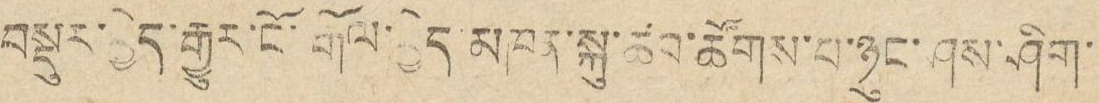བསྡུར་བྱེད་རྒྱུར་ངོ་རྒོལ་བྱེད་མཁན་སྐུ་ཚབ་ཚོགས་པ་ཉུང་ཤས་ཤིག་
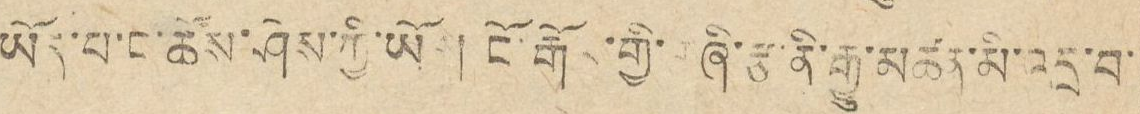ཡོད་པ་ང་ཚོས་ཤེས་ཀྱི་ཡོད། ངོ་རྒོལ་གྱི་གཞི་རྩ་ནི་རྒྱུ་མཚན་མི་འདྲ་བ་
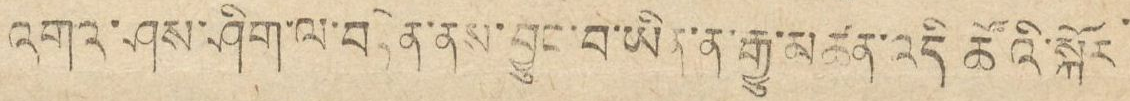འགའ་ཤས་ཤིག་ལ་བརྟེན་ནས་བྱུང་བ་ཡིན་ན་རྒྱུ་མཚན་འདི ཚོའི་སྐོར་
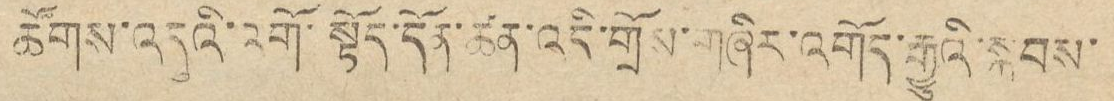ཚོགས་འདུའི་འགོ་སྟོད་དོན་ཚན་འདི་གྲོས་གཞིར་འགོད་རྒྱུའི་སྐབས་
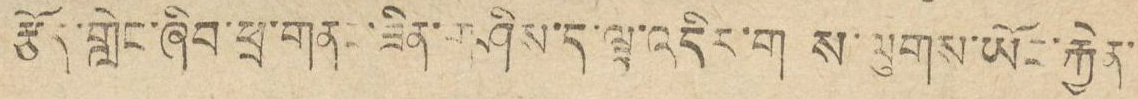རྩོད་གླེང་ཞིབ་ཕྲ་གནང་ཟིན་གཤིས་ད་ལྟ་འདིར་གས་ལུགས་ཡོང་རྐྱེན་
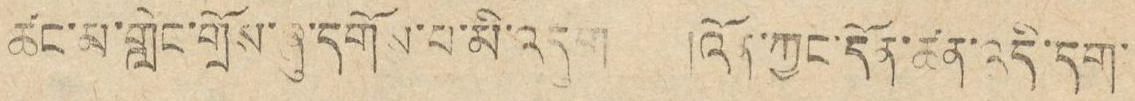ཚང་མ་གླེང་གྲོས་ཞུ་དགོས་པ་མི་འདུག །འོན་ཀྱང་དོན་ཚན་འདི་དག་
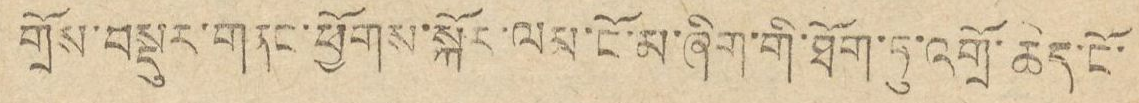གྲོས་བསྡུར་གནང་ཕྱོགས་སྐོར་ལམ་ངོ་མ་ཞིག་གི་ཐོག་ཏུ་འགྲོ་ཆེད་ངོ་
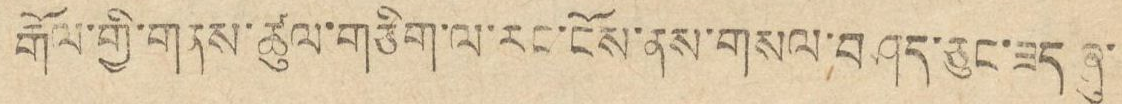རྒོལ་གྱི་གནས་ཚུལ་གཅིག་ལ་རང་ངོས་ནས་གསལ་བཤད་ཅུང་ཟད་ཞུ་
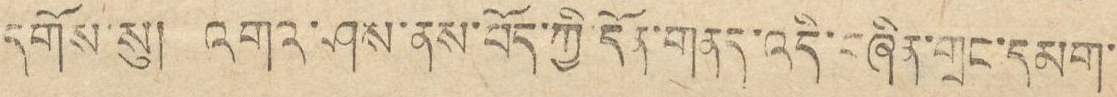དགོས་སུ། འགའ་ཤས་ནས་བོད་ཀྱི་དོན་གནད་འདི་བཞིན་གྲང་དམག་
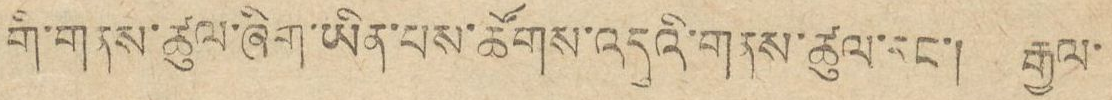གི་གནས་ཚུལ་ཞིག་ཡིན་པས་ཚོགས་འདུའི་གནས་ཚུལ་དང་། རྒྱལ་
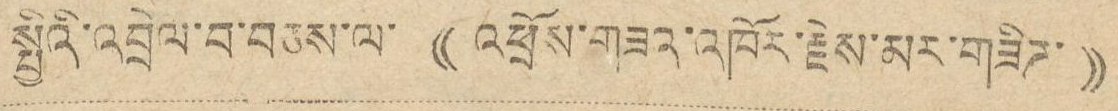སྤྱིའི་འབྲེལ་བ་བཅས་ལ་ ((འཕྲོས་གཟའ་འཁོར་རྗེས་མར་གཟིཌ་))
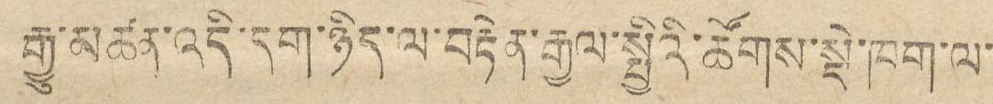རྒྱུ་མཚན་འདི་དག་ཉིད་ལ་བརྟེན་རྒྱལ་སྤྱིའི་ཚོགས་སྡེ་ཁག་ལ་
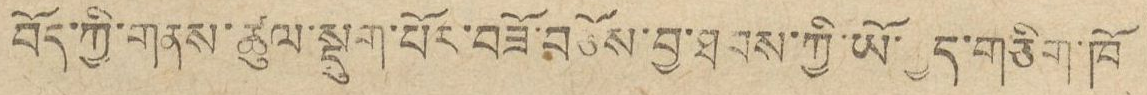བོད་ཀྱི་གནས་ཚུལ་སྡུག་པོར་བཟོ་བཅོས་བྱ་ཐབས་ཀྱི་ཡོ་བྱད་གཅིག་ཁོ་
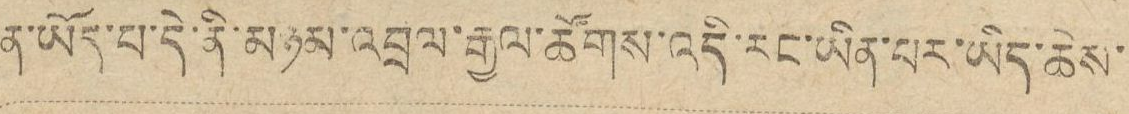ན་ཡོད་པ་དེ་ནི་མཉམ་འབྲལ་རྒྱལ་ཚོགས་འདི་རང་ཡིན་པར་ཡིད་ཆེས་
